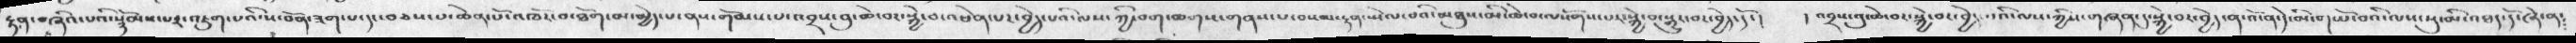རྟན་བཞིའ་པའི་སྙོམས་པར་འཇུག་པའི་ས་བོན་ཟག་པ་དང་བཅས་པ་ཆེན་པོ་འཁོར་བ་ཐོག་མ་མྱེད་པ་ནས་གོམས་པ་འབྲས་བུ་ཆེ་བར་སྐྱེ་བ་འཕེན་པར་བྱེད་པའི་ལས་ཀྱི་བག་ཆགས་གནས་པ་བསམ་རྟན་སྤེལ་བའི་མཐུས་མི་ཆེ་བ་ལསོགས་པར་སྐྱེ་བ་སྒྱུར་བར་བྱེད་དོ་།   ། འབྲས་བུ་ཆེ་བར་སྐྱེ་བར་བྱེ་པའི་ལས་ཀྱིས་གཞན་དུ་སྐྱེ་བར་བྱེད་ན་འོ་ན་དེ་མི་གཡོ་བའི་ལས་སུ་མི་འཐད་དོ་ཞེ་ན༴
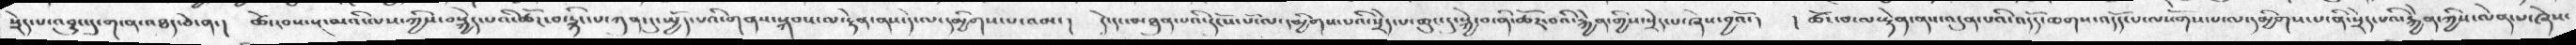སྲེད་པ་འབྱུང་དུ་ག་ན་འཐད་ཅེ་ན་།   ཚེ་རབས་སྔ་མའི་ལས་ཀྱིས་བསྐྱེད་པའི་ཚོར་བ་རྙིང་པ་ཀུན་དུ་སྤྱོད་པའི་གནས་སྐབས་ལ་རྟེན་ནས་དེ་ལ་དམྱིགས་པ་འམ་།  དེ་དང་མཐུན་པའི་དངོས་པོ་ལ་དམྱིགས་པའི་སྲིད་པ་ཆུང་ངུ་སྐྱེ་བ་ནི་ཚོར་བའི་རྐྱེན་གྱིས་སྲེད་པ་ཞེས་བྱའོ་།    ། ཚོར་བ་ལ་རྟེན་ནས་འདུན་པའི་འདོད་ཆགས་འདོད་པ་ལསོགས་པ་ལ་དམྱིགས་པ་ནི་སྲེད་པའི་རྐྱེན་ཀྱིས་ལེན་པ་ཞེས་
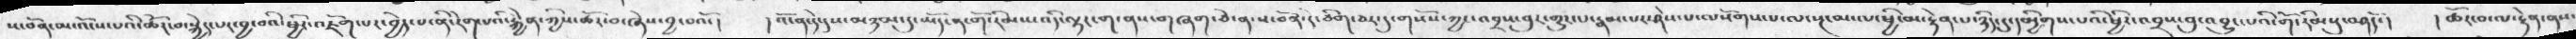ས་བོན་མ་འོངས་པའི་ཚོང་བ་སྐྱེད་པར་བྱ་བའི་ཕྱིར་འཇོག་པར་བྱེད་པ་ནི་རེག་པའི་རྐྱེན་ཀྱིས་ཚོར་བ་ཞེས་བྱ་བའོ་།  །འོ་ན་དེ་དུས་མཉམ་དུ་ཡོད་ན་གོ་རིམས་འདི་ལྟར་ག་ནས་བཞག་ཅེ་ན་ས་བོན་དེ་ཅིག་ཆར་དུ་གསོས་ཀྱང་འབྲས་བུར་གྱུར་པ་རྣམ་པར་ཤེས་པ་ལསོགས་པ་ལ་སྔ་མ་ལ་ཕྱི་མ་རྟེན་པ་ཉིད་དུ་དམྱིགས་པའི་ཕྱིར་འབྲས་བུ་འབྱུང་པའི་གོ་རིམ་དུ་བཤདོ་།   ། ཚོར་བ་ལ་རྟེན་ནས་
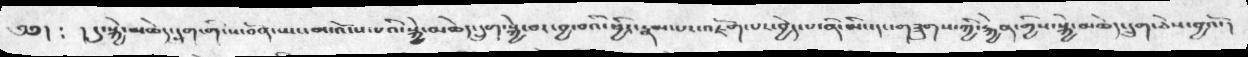༄༅།  ༴  ། དུ་སྐྱེ་མཆེད་དྲུག་གི་ས་བོན་ཡང་མ་འོངས་པའི་སྐྱེ་མཆེད་དྲུག་སྐྱེ་བར་བྱ་བའི་ཕྱིར་རྣམ་པར་འཇོག་པར་བྱེད་པ་ནི་མིང་དང་གཟུགས་ཀྱི་རྐྱེན་གྱིས་སྐྱེ་མཆེད་དྲུག་ཅེས་བྱའོ་།
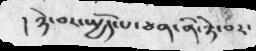། ཉེ་བར་སྤྱོད་པ་ཅན་ནི་ཉེ་བར་
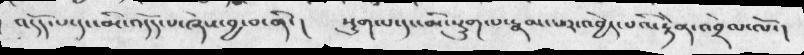འདོད་པ་དང་མི་འདོད་པ་ཞེས་བྱ་བ་ནི་།   སྡུག་པ་དང་མི་སྡུག་པ་རྣམ་པར་འབྱེད་པའི་རྟེན་འབྲེལ་ལོ་།
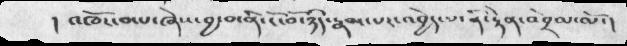།  འཁོར་བ་པ་ཞེས་བྱ་བ་ནི་ངོ་བོ་ཉིད་རྣམ་པར་འབྱེད་པ་ནི་རྟེན་འབྲེལ་ལོ་།
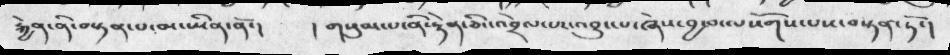རྐྱེན་ནི་བསྟན་པ་མ་ཡིན་ནོ་།     ། གསུམ་པ་ནི་རྟེན་ཅིང་འབྲེལ་པར་འབྱུང་པ་ཞེས་བྱ་ལསོགས་པས་བསྟན་ཏོ་།
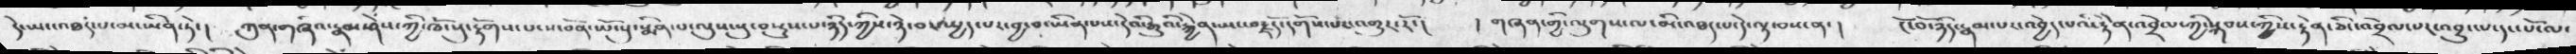དེ་ཡང་འཐད་པ་མ་ཡིན་ཏེ་།  ཀུན་གཞིའ་རྣམ་ཤེས་ཀྱི་ཁོངས་སུ་རྟོགས་པ་ས་བོན་ཡོངསུ་སྨིན་པ་ལུས་སུ་བསྡུས་པ་ཉིད་ཀྱིས་ཉེ་བར་སྤྱད་པར་བྱ་བ་ཡིན་པས་དེའི་རྒྱུའི་རྐྱེན་ཡང་བརྗོད་དགོས་པར་འགྱུར་རོ་།   ། གཞན་གྱི་ལུགས་ལ་མི་འཐད་པ་དེ་ལྟ་བས་ན་།   ངོ་བོ་ཉིད་རྣམ་པར་འབྱེད་པའི་རྟེན་འབྲེལ་གྱི་སྐབས་ཀྱིས་རྟེན་ཅིང་འབྲེལ་བར་འབྱུར་པ་དང་པོ་ལ་
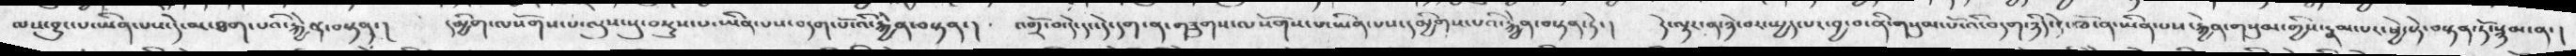ལས་བྱུང་པ་ཡིན་པས་དེ་མ་ཐག་པའི་རྐྱེན་བསྟན་།   དམྱིག་ལསོགས་པ་ལུས་སུ་བསྡུས་པ་ཡིན་པས་བདག་པོ་འི་རྐྱེན་བསྟན་།  འགྲོ་བ་དེ་དང་དེ་དག་ན་གཟུགས་ལསོགས་པ་ཡིན་པས་དམྱིགས་པའི་རྐྱེན་བསྟན་ཏེ་།  དེ་ལྟར་ན་ཉེ་བར་སྤྱད་པར་བྱ་བ་ནི་གསུམ་པོ་འི་བདག་ཉིད་དེ་ཁོ་ན་ཡིན་པས་རྐྱེན་གསུམ་གྱིས་རྣམ་པར་ཕྱེ་སྟེ་བསྟན་དོ་སྙམ་ན་།
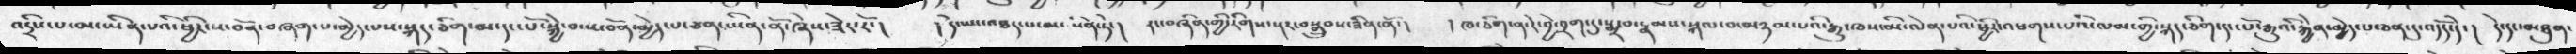འདྲིས་པ་མ་ཡིན་པི་ཕྱིར་ས་བོན་བཞག་པ་མྱེད་པས་སྐད་ཅིག་མ་དང་པོ་སྐྱེ་བ་ས་བོན་མྱེད་པ་ཅན་ཡིན་ནོ་ཞེས་ཟེར་རོ་།   ། དེ་ཡང་འཐད་པ་མ་ཡིན་ཏེ་།  རང་བཞིན་གྱི་རིགས་སྔར་བསྒྲུབས་ཟིན་ནོ་།   ། ཁ་ཅིག་ན་རེ་བྱེ་བྲག་དུ་སྨྲ་བ་རྣམས་སྐལ་བ་མཉམ་པའི་རྒྱུ་ཁས་མི་ལེན་པའི་ཕྱིར་འཕགས་པའི་ལམ་གྱི་སྐད་ཅིག་དང་པོ་རྒྱུའི་རྐྱེན་མྱེད་པ་ཅན་དུ་འདོད་དེ་།  དེ་དང་མཐུན་
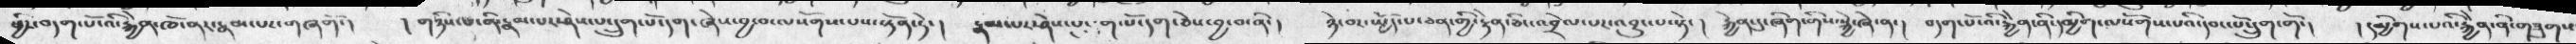ཕྱིར་བདག་པོ་འི་རྐྱེན་ཁོ་ནར་རྣམ་པར་གཞག་གོ་།   ། གཉིས་པ་ནི་རྣམ་པར་ཤེས་པ་དྲུག་པོ་དག་ཞེས་བྱ་བ་ལསོགས་པས་སྟོན་དེ་།  རྣམ་པར་ཤེས་པ་དྲུག་པོ་དག་ཅེས་བྱ་བ་ནི་།   ཉེ་བར་སྤྱོད་པ་ཅན་གྱི་རྟེན་ཅིང་འབྲེལ་པར་འབྱུང་པ་སྟེ་།    རྐྱེན་དུ་ཞིག་གིས་སྐྱེ་ཞེ་ན་།    བདག་པོ་འི་རྐྱེན་ནི་དམྱིག་ལསོགས་པའི་དབང་པོ་དྲུག་གོ་།   ། དམྱིགས་པའི་རྐྱེན་ནི་གཟུགས
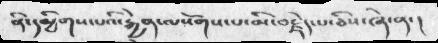ནི་དམྱིགས་པའི་རྐྱེན་ལསོགས་པ་མི་བརྗིད་པ་ཅིས་ཞེ་ན་།
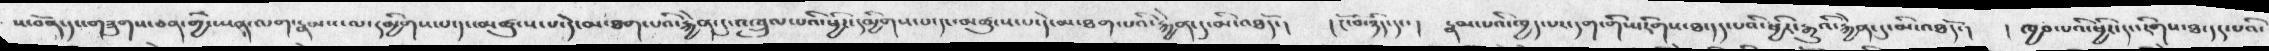ས་བོན་དང་གཟུགས་ཅན་གྱི་ཡན་ལག་རྣམས་ལ་དམྱིགས་པ་དང་མཚུངས་པ་དེ་མ་ཐག་པའི་རྐྱེན་དུ་འཁྲུལ་པའི་ཕྱིར་དམྱིགས་པ་དང་མཚུངས་པ་དེ་མ་ཐག་པའི་རྐྱེན་དུ་མི་འཐདོ་།   ། ངོ་བོ་ཉིད་དང་།   རྣམ་པའི་ཁྱད་པར་དག་གིས་རིགས་ཐ་དད་པའི་ཕྱིར་རྒྱུའི་རྐྱེན་དུ་མི་འཐདོ་།   ། ཁྱབ་པའི་ཕྱིར་དང་རིགས་ཐ་དད་པའི་
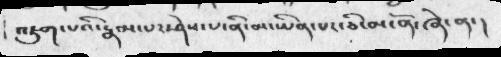འཇུག་པའི་རྣམ་པར་ཤེས་པ་ནི་མ་ཡིན་པར་ཅི་མངོན་ཞེ་ན་།
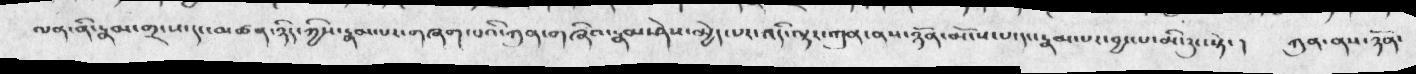ལན་ནི་རྣམ་གྲངས་དང་མཚན་ཉིད་ཀྱིས་རྣམ་པར་གཞག་པའི་ཀུན་གཞིའ་རྣམ་ཤེས་མྱེད་པར་འདི་ལྟར་ཀུན་ནས་ཉོན་མོངས་པ་དང་རྣམ་པར་བྱང་པ་མི་རུང་སྟེ་།   ཀུན་ནས་ཉོན་
